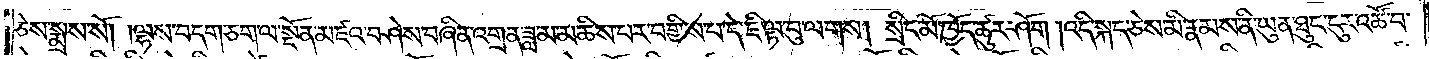ཅེས་སྨྲས་སོ། །ལྷས་བདག་ཅག་ལ་སྔོན་མཛའ་བཤེས་བཞིན་འགྲན་ཟླ་མ་མཆིས་པར་བགྱིས་པ་དེ་ཇི་ལྟ་བུ་ལགས། སྲིང་མོ་ཁྱོད་ཚུར་ཤོག །འདི་སྐད་ཅེས་མི་རྣམས་ནི་ཡུན་ཐུང་ངུར་འཚོ་བ་
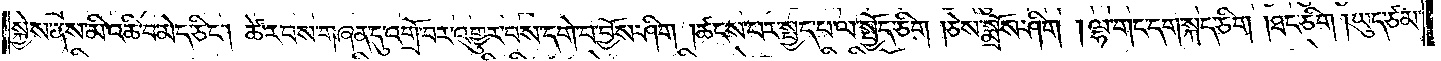སྐྱེས་ནས་མི་འཆི་བ་མེད་ཅིང༌། ཚེ་རབས་གཞན་དུ་འགྲོ་བར་འགྱུར་བས་དགེ་བ་བྱོས་ཤིག །ཚངས་པར་སྤྱད་པ་ལ་སྤྱོད་ཅིག །ཅེས་སྨྲོས་ཤིག །ལྷ་གང་དག་སྐད་ཅིག །ཐང་ཅིག །ཡུད་ཙམ་
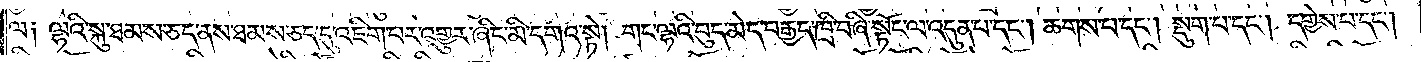ལ༑ ལྷའི་སྐུ་ཐམས་ཅད་ནས་ཐམས་ཅད་དུ་འཇིག་པར་འགྱུར་ཞིང་མི་དགའ་སྟེ། གང་ལྷའི་བུད་མེད་བརྒྱད་ཁྲི་བཞི་སྟོང་ལ་འདུན་པ་དང༌། ཆགས་པ་དང༌། སྡུག་པ་དང༌། དགྱེས་པ་དང༌།
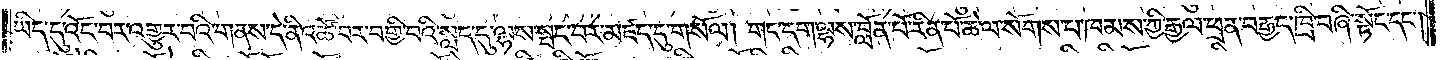ཡིད་དུ་འོང་བར་འགྱུར་བའི་གནས་དེ་ནི་འཚོ་བར་བགྱི་བའི་སླད་དུ་ལྷས་སྤང་བར་མཛད་དུ་གསོལ། གང་དག་ལྷས་བློན་པོ་རིན་པོ་ཆེ་ལ་སོགས་པ་ཁམས་ཀྱི་རྒྱལ་ཕྲན་བརྒྱད་ཁྲི་བཞི་སྟོང་དང༌།
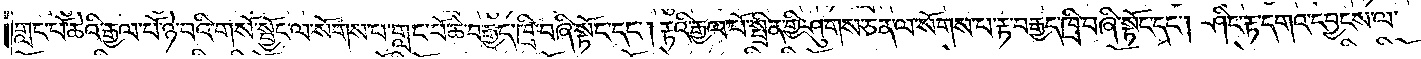གླང་པོ་ཆེའི་རྒྱལ་པོ་ཉེ་བའི་གསོ་སྦྱོང་ལ་སོགས་པ་གླང་པོ་ཆེ་བརྒྱད་ཁྲི་བཞི་སྟོང་དང༌། རྟའི་རྒྱལ་པོ་སྤྲིན་གྱི་ཤུགས་ཅན་ལ་སོགས་པ་རྟ་བརྒྱད་ཁྲི་བཞི་སྟོང་དང༌། ཤིང་རྟ་དགའ་དབྱངས་ལ་
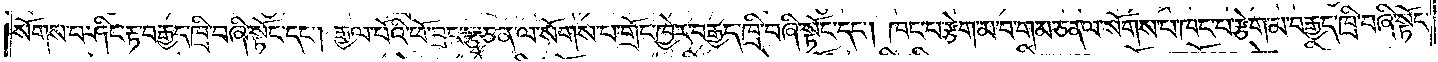སོགས་པ་ཤིང་རྟ་བརྒྱད་ཁྲི་བཞི་སྟོང་དང༌། རྒྱལ་པོའི་ཕོ་བྲང་རྩྭ་ཅན་ལ་སོགས་པ་གྲོང་ཁྱེར་བརྒྱད་ཁྲི་བཞི་སྟོང་དང༌། ཁང་པ་རྩེག་མ་བ་གམ་ཅན་ལ་སོགས་པ་ཁང་པ་རྩེག་མ་བརྒྱད་ཁྲི་བཞི་སྟོང་
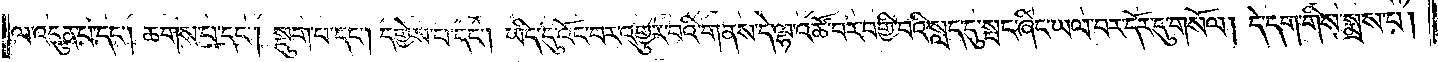ལ་འདུན་པ་དང༌། ཆགས་པ་དང༌། སྡུག་པ་དང༌། དགྱེས་པ་དང༌། ཡིད་དུ་འོང་བར་འགྱུར་བའི་གནས་དེ་ལྷ་འཚོ་བར་བགྱི་བའི་སླད་དུ་སྤང་ཞིང་ཡལ་བར་དོར་དུ་གསོལ། དེ་དག་གིས་སྨྲས་པ།
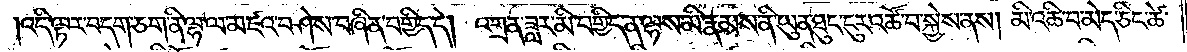འདི་ལྟར་བདག་ཅག་ནི་ལྷ་ལ་མཛའ་བཤེས་བཞིན་བགྱིད་དེ། འགྲན་ཟླར་མི་བགྱིད་ན་ལྷས་མི་རྣམས་ནི་ཡུན་ཐུང་ངུར་འཚོ་བ་སྐྱེས་ནས། མི་འཆི་བ་མེད་ཅིང་ཚེ་
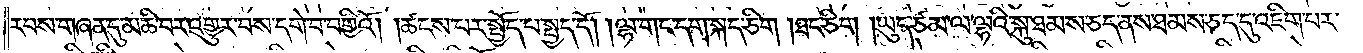རབས་གཞན་དུ་མཆི་བར་འགྱུར་བས་དགེ་བ་བགྱིའོ། །ཚངས་པར་སྤྱོད་པ་སྤྱད་དོ། །ལྷ་གང་དག་སྐད་ཅིག །ཐང་ཅིག །ཡུད་ཙམ་ལ་ལྷའི་སྐུ་ཐམས་ཅད་ནས་ཐམས་ཅད་དུ་འཇིག་པར་
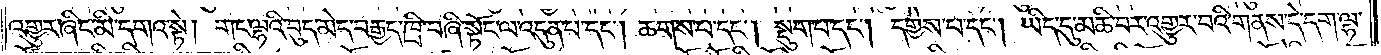འགྱུར་ཞིང་མི་དགའ་སྟེ། གང་ལྷའི་བུད་མེད་བརྒྱད་ཁྲི་བཞི་སྟོང་ལ་འདུན་པ་དང༌། ཆགས་པ་དང༌། སྡུག་པ་དང༌། དགྱེས་པ་དང༌། ཡིད་དུ་མཆི་བར་འགྱུར་བའི་གནས་དེ་དག་ལྷ་
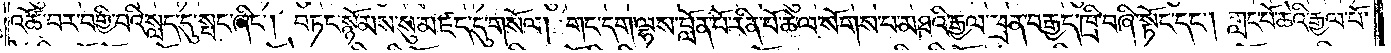འཚོ་བར་བགྱི་བའི་སླད་དུ་སྤང་ཞིང༌། བཏང་སྙོམས་སུ་མཛད་དུ་གསོལ། གང་དག་ལྷས་བློན་པོ་རིན་པོ་ཆེ་ལ་སོགས་པ་མཐའི་རྒྱལ་ཕྲན་བརྒྱད་ཁྲི་བཞི་སྟོང་དང༌། གླང་པོ་ཆེའི་རྒྱལ་པོ་
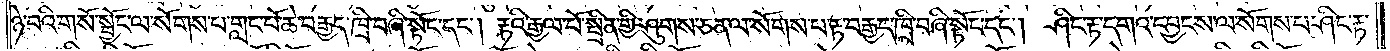ཉེ་བའི་གསོ་སྦྱོང་ལ་སོགས་པ་གླང་པོ་ཆེ་བརྒྱད་ཁྲི་བཞི་སྟོང་དང༌། རྟའི་རྒྱལ་པོ་སྤྲིན་གྱི་ཤུགས་ཅན་ལ་སོགས་པ་རྟ་བརྒྱད་ཁྲི་བཞི་སྟོང་དང༌། ཤིང་རྟ་དགའ་དབྱངས་ལ་སོགས་པ་ཤིང་རྟ་
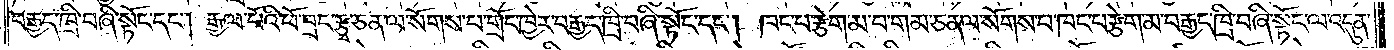བརྒྱད་ཁྲི་བཞི་སྟོང་དང༌། རྒྱལ་པོའི་ཕོ་བྲང་རྩྭ་ཅན་ལ་སོགས་པ་གྲོང་ཁྱེར་བརྒྱད་ཁྲི་བཞི་སྟོང་དང༌། ཁང་པ་རྩེག་མ་བ་གམ་ཅན་ལ་སོགས་པ་ཁང་པ་རྩེག་མ་བརྒྱད་ཁྲི་བཞི་སྟོང་ལ་འདུན་
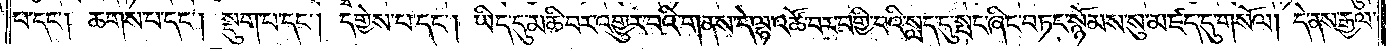པ་དང༌། ཆགས་པ་དང༌། སྡུག་པ་དང༌། དགྱེས་པ་དང༌། ཡིད་དུ་མཆི་བར་འགྱུར་བའི་གནས་དེ་ལྷ་འཚོ་བར་བགྱི་བའི་སླད་དུ་སྤང་ཞིང་བཏང་སྙོམས་སུ་མཛད་དུ་གསོལ། དེ་ནས་རྒྱལ་
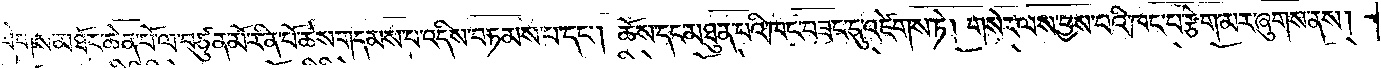པོ་ལེགས་མཐོང་ཆེན་པོ་ལ་བཙུན་མོ་རིན་པོ་ཆེས་གདམས་པ་འདིས་བཏམས་པ་དང༌། ཆོས་དང་མཐུན་པའི་ཁང་བཟང་དུ་འཛེགས་ཏེ། གསེར་ལས་བྱས་པའི་ཁང་པ་རྩེག་མར་ཞུགས་ནས།
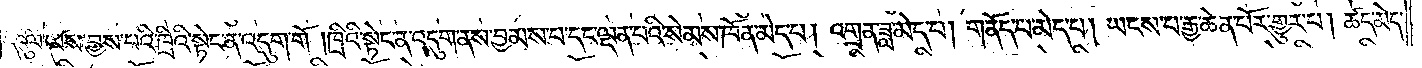དངུལ་ལས་བྱས་པའི་ཁྲིའི་སྟེང་ན་འདུག་གོ །ཁྲིའི་སྟེང་ན་འདུག་ནས་བྱམས་པ་དང་ལྡན་པའི་སེམས་ཁོན་མེད་པ། འགྲན་ཟླ་མེད་པ། གནོད་པ་མེད་པ། ཡངས་པ་རྒྱ་ཆེན་པོར་གྱུར་པ། ཚད་མེད་
